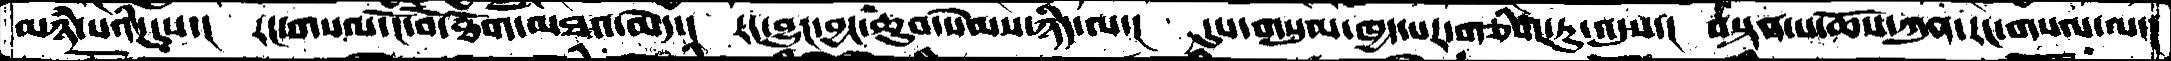མཉཾ་པའི་དུས་།  རང་གསལ་ངོ་བོ་ཐོག་མཐའ་མེད་།  རང་བྱུང་བྱང་ཆུབ་སེམས་ཉིད་ལ་།  དུས་གསུམ་ཁྱད་པར་གཅིག་ཏུ་འདུས་།  བསྟན་པ་ཆོས་ཀུན་རང་གསལ་ལ་།
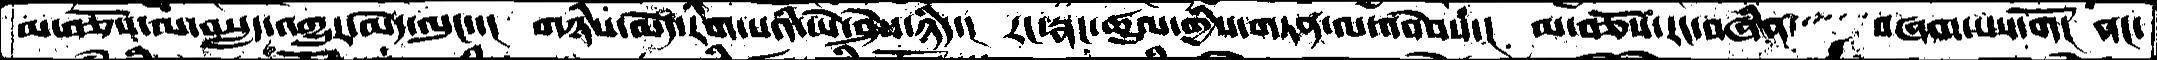མ་བཅོས་མ་བསླད་འགྱུར་མེད་ལུང་་།  གཉིས་མེད་རིག་པའི་ཡེ་ཤེས་ཉིད་།  རང་སྣང་ཚུལ་གྱིས་གཏན་ལ་འབེབས་།  མ་བཅོས་རང་བཞིན་   བཞག་པས་གོ།  ནང་
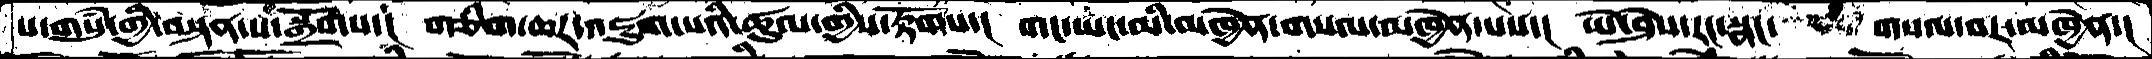པ་གསུཾ་གྱི་བསྟན་པ་སྒྲོགས་།  གཅིག་ཆར་འཇུག་པའི་ཚུལ་གྱིས་རྟོགས་།  གང་ཡང་མི་མཁྱེན་གསལ་མཁྱེན་པས་།  ཡེ་ཤེས་རང་སྣང་    གསལ་བར་མཁྱེན་།
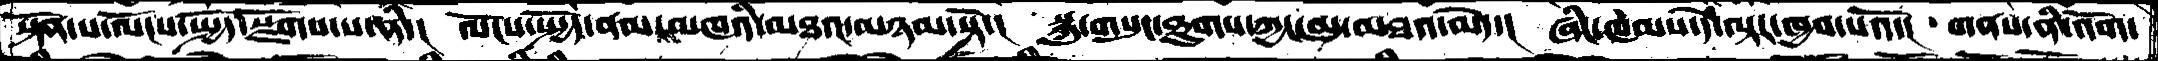སྟོན་པ་ལོངས་སྤྱོད་སྫོགས་པ་ནི་།  ལོངས་སྤྱོད་ནམ་མཁའི་མཐའ་མཉམ་སྟེ་།  སྐུ་གསུང་ཐུགས་ཀྱང་མུ་མཐའ་མེད་།  ཞིང་ཁམས་དེ་ལྟར་ཁྱབ་པའོ་།  གནས་ནི་འོག་
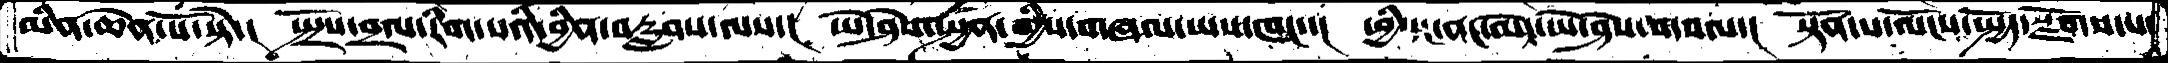མིན་ཆེན་པོ་སྟེ་།  སྤྲོས་བྲལ་རིག་པའི་བྱིན་བརླབས་ལས་།  ཡེ་ཤེས་སྤྱན་གྱིས་གཞལ་ཡས་ཁང་་།  ཕྱི་དང་ནང་མེད་ཡེ་ཤེས་གསལ་།  སྟོན་པ་ལོངས་སྤྱོད་སྫོགས་པ་
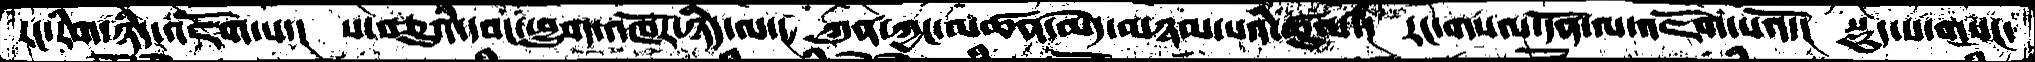རང་རིག་ཉིད་འཇོག་པ་།  ས་བཅུའི་དབང་ཕྱུག་འཁོར་ཉིད་ལ་།  ཀུན་ཀྱང་མཚན་མེད་མཉམ་པའི་ཚུལ་།   རང་གསལ་དོན་ལ་འཇོག་པའོ་།  སྡུད་པ་གསང་
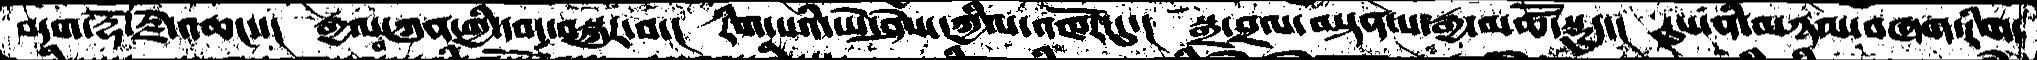བདག་རྡོ་རྗེ་འཆང་་།  རྒྱལ་བ་ཀུན་གྱི་དབང་བསྐུར་བ་།  རིག་པའི་ཡེ་ཤེས་དཀྱིལ་འཁོར་དུ་།  སྒྲ་བྲལ་བསྟན་པ་རྒྱ་མཚོ་སྡུད་།  དུས་ནི་མཉམ་བཞག་རིག་
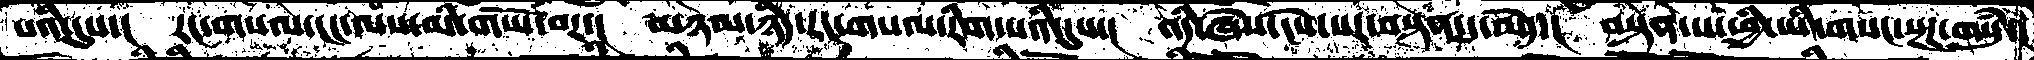པའི་དུས་།   རང་གསལ་ངང་ལས་མི་གཡོ་བར་།  མཉམ་ཉིད་རང་གསལ་རིག་པའི་དུས་།  འདི་ཞེས་ངེས་པར་བསྟན་དུ་མེད་།  བསྟན་པ་ཕྱི་ཡི་གསང་སྔཌ་གསུཾ་།
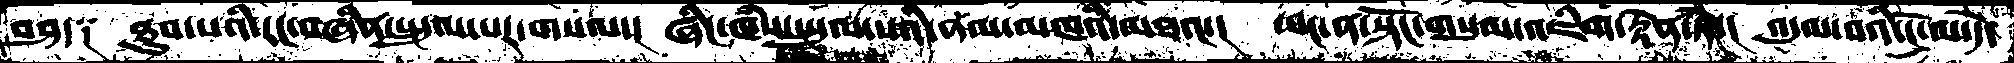བཤད༑   ཐུབ་པའི་རང་བཞིན་སྤྲུལ་པར་གསལ་།  ཞིང་ཁཾས་ཡུལ་སའི་ནམ་མཁའི་མཐའ་།  ཡང་ན་སྟོང་གསུམ་འཇིག་རྟེན་ཏེ་།  འདུལ་བའི་ངོ་ལ་དེ་
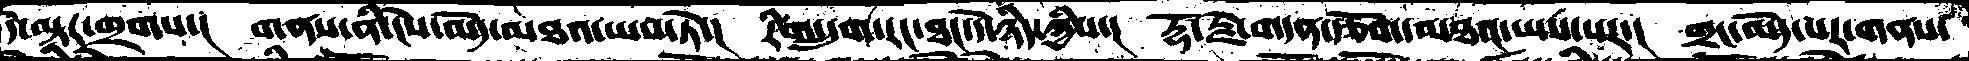དེ་ལྟར་གྲགས་།  གནས་ནི་ངེས་མེད་མཐའ་ཡས་ཏེ་།  རིག་དྲུག་རང་ཐང་དེ་ཉིད་ཀྱིས་།  རྡོ་རྗེ་གདན་རྩོག་མཐའ་ཡས་པར་།  གྲང་མེད་པར་གནས་
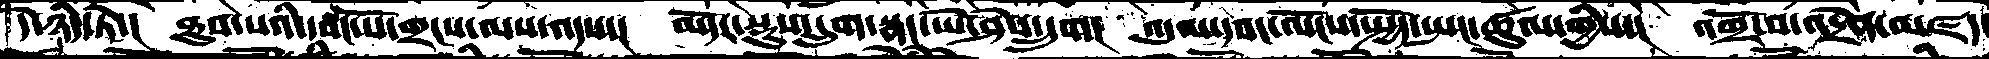དེ་ཉིད་ཏེ་།  ཐུབ་པའི་དབང་པོ་གྲངས་ལས་འདས་།  མདོར་སྡུས་དྲུག་སྣང་ཡེ་ཤེས་དྲུག།  འདུལ་དབང་ལོངས་སྤྱོད་སྤང་ཚུལ་གྱིས་།  འགྲོ་བ་འདྲེན་མཛད་
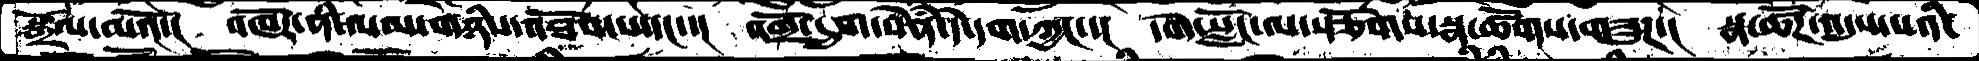སྒྲོལ་མའོ་།  འཁོར་ནི་ལམ་གཉིས་འཐོབ་པ་དང་།  འགྲོ་དྲུག་སེཾན་དེ་དག་ཀྱང་་།  དགེ་སློང་ལ་སྩོགས་སྣ་ཚོཌ་གཟུཌ་།  སྣ་ཚོཌ་འདུས་པའི་
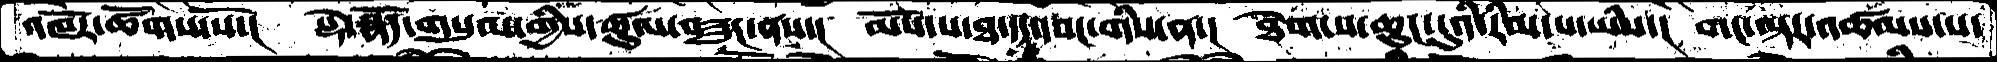འཁོར་ཚོགས་སོ་།  སྡེ་སྣོད་གསུམ་གྱིས་ཚུལ་བཟུང་ནས་།  མོས་པ་ཐ་དད་དབང་གིས་ན་།  ཐེག་པ་ཆུང་ངུའི་རིམ་པ་ཡིས་།  གང་ལྟར་འཚམས་པ་
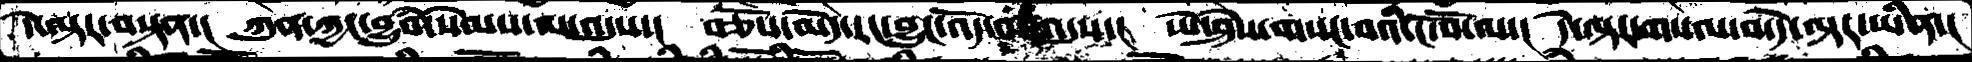དེ་ལྟར་བསྟན་།  ཀུན་ཀྱང་བྱུཾབ་སེམས་ལས་འདུས་།  བཅོས་མེད་རང་བྱུང་འོད་ལ་འདུས་།  ཡེ་ཤེས་གསང་བའི་ངོ་བོ་ལ་།  དེ་ལྟར་གསལ་བ་དེ་ལྟར་ཡིན་།
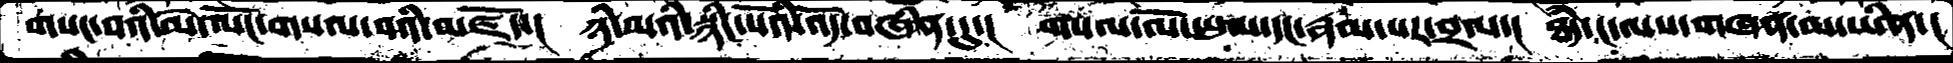གསང་བའི་མེ་ལོང་གསལ་བའི་མཛོད་།  ཉི་མའི་སྙིང་པོའི་འོད་བཞིན་དུ་།  གསལ་ལོ་ཡུམ་དང་རྣམ་པར་བྲལ་།  ཐཾད་ང་ལས་གཞན་མ་ཡིན་།
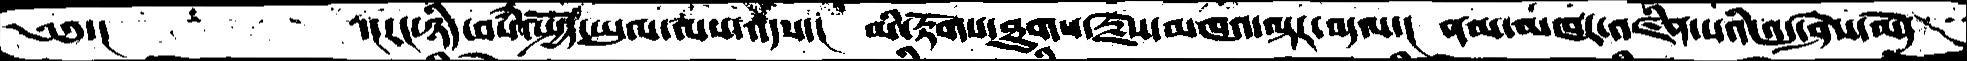༄༅་།       ་།རང་ཉིད་བསཾ་སྤྱོད་ཡུལ་ལས་འདས་།  མི་རྟོགས་ཐུགས་རྗེས་མཁའ་ལྟར་བདལ་།  ནམ་མཁར་འཛིན་པའི་འདུ་ཤེས་མེད
